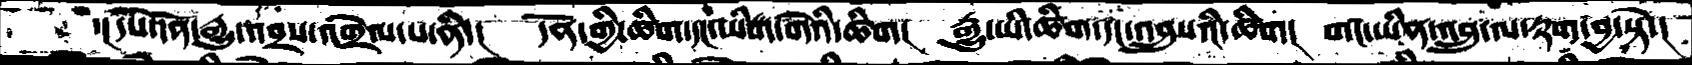་།དཔེ་དོན་རྒྱུ་འབྲས་འགྲེལ་པ་ནི་།  དོན་གྱི་ཚིག་དང་ཡིག་གེའི་ཚིག།  རྒྱུ་ཡི་ཚིག་དང་འབྲུསའི་ཚིག།  གང་ཡིན་འབྲུ་ལ་རྟག་བྱ་སྟེ་།
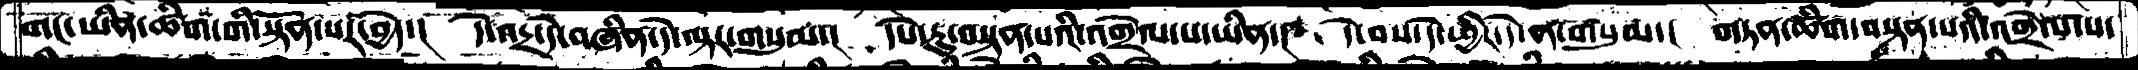གང་ཡིན་ཚིག་གི་སྟོན་པར་བྱེད་།  དེ་འདྲ་དེ་བཞིན་དེ་ལྟར་གསུམ་།  དཔེ་རུ་བསྟན་པའི་འགྲེལ་པ་ཡིན་།  དེ་བས་དེ་ཕྱིར་དེ་ན་གསུམ་།  གཏན་ཚིག་བསྟན་པའི་འགྲེལ་པ་
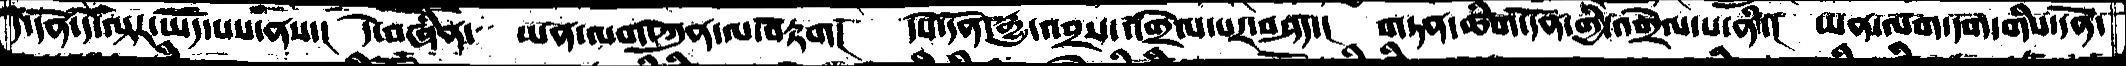དེ་དོན་དེ་ལྟར་ཡོད་པས་ནས་།   དེ་བཞིན་  ཡན་ལག་ཀུན་ལ་བརྟག།   དཔེ་དོན་རྒྱུ་འབྲས་འགྲེལ་པར་བཤད་།  གཏན་ཚིག་དོན་གྱི་འགྲེལ་པ་ནི་།  ཡན་ལག་དག་གིས་དོན་
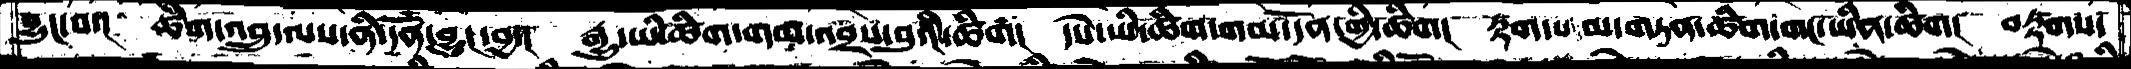བྱུང་བ་། ཚིག་འབྲུ་ལས་ནི་དོན་བྱུང་བྱ་། རྒྱུ་ཡི་ཚིག་གམ་འབྲས་བུའི་ཚིག། དཔེ་ཡི་ཚིག་གམ་དོན་གྱི་ཚིག། རྟག་སམ་གཏན་ཚིག་གང་ཡིན་ཚིག། བརྟགས་
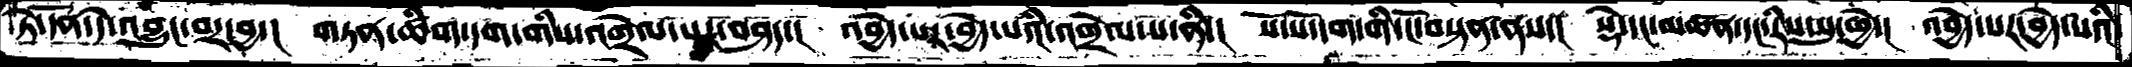ཏེ་དོན་དེ་འབྱུང་བར་བྱ་།  གཏན་ཚིག་དག་གིས་འགྲེལ་པར་བཤད་།  འབྱེད་པར་བྱེད་པའི་འགྲེལ་པ་ནི་།  སོ་སོ་དག་གི་ངོ་བསྟན་ནས་།  སྡེ་དང་མཚན་དང་རིས་སུ་ཕྱེ་།   འབྱེད་པར་བྱེད་པའི་
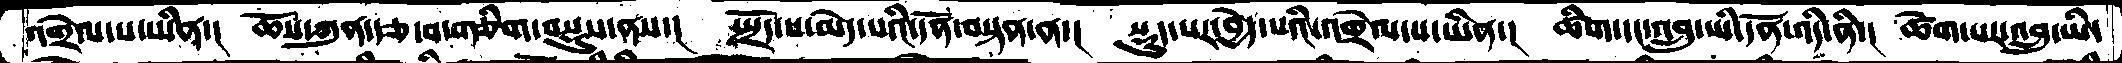འགྲེལ་པ་ཡིན་།  ཆོས་ཀུན་རྩ་བ་གཅིག་བསྡུས་ནས་།  སྤྲོད་པ་མེད་པའི་དོན་བསྟན་ན་།  སྡུད་པར་བྱེད་པའི་འགྲེལ་པ་ཡིན་།  ཚིག་དང་འབྲུ་ཡི་དོན་འདི་ནི་།  ཚེག་པར་འབྲུ་ཡི་
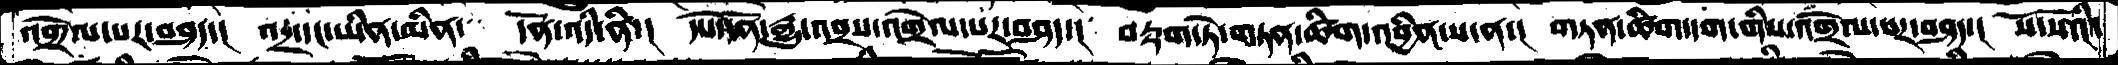འགྲེལ་པར་བཤད་།  འདྲ་དང་ཡིན་མིན་  དོན་འདི་ནི་།  དཔེ་དོན་རྒྱུ་འབྲས་འགྲེལ་པར་བཤད་།  བརྟག་ཏེ་གཏན་ཚིག་འབྱིན་པ་ན་།  གཏན་ཚིག་དག་གིས་འགྲེལ་པར་བཤད་།  སོ་སོའི་
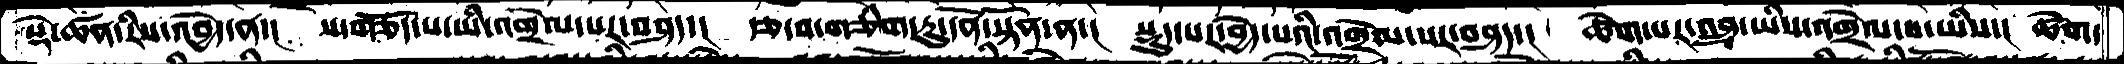སྡེ་ཚན་རིས་འབྱེད་ན་།   ས་གཅོད་པཡི་འགྲེལ་པར་བཤད་།  རྩ་བ་གཅིག་ཏུ་དོན་སྟོན་ན་།  སྡུད་པར་བྱེད་པའི་འགྲེལ་པར་བཤད་།  ཚེག་པར་འབྲུ་ཡིས་འགྲེལ་པ་ཡིས་།  ཚེག་
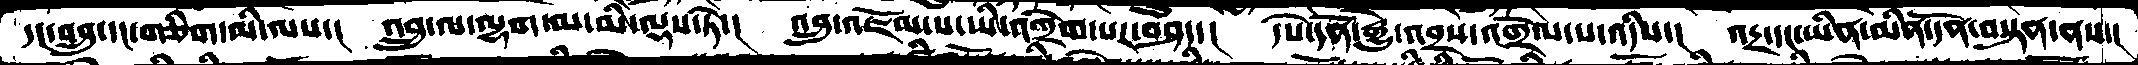དང་འབྲུ་དང་གཅིག་མི་ལས་།  འབྲུ་ལ་ལྷག་མ་མི་ལྡས་ཏེ་།   འབྲུ་འཇོམ་པ་ཡི་འགྲེལ་པར་བཤད་།  དཔེ་དོན་རྒྱུ་འབྲས་འགྲེལ་པ་འདིས་།  འདྲ་དང་ཡིན་མིན་དོན་བསྟན་ནས་།
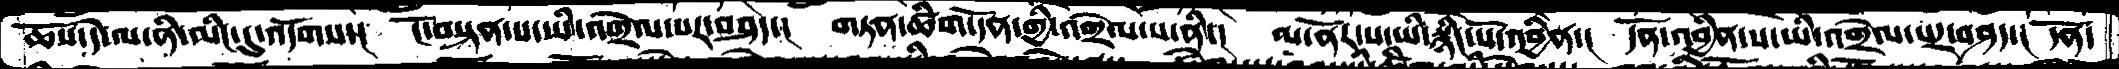ཆོས་དེ་ལ་ནི་མིང་དུ་འདོགས་།  ངོ་བསྟན་པ་ཡི་འགྲེལ་པར་བཤད་།  གཏན་ཚིག་དོན་གྱི་འགྲེལ་པ་ནི་།  མ་ནོར་ས་ཡི་སྙིང་པོ་འབྱིན་།  དོན་འབྱིན་པ་ཡི་འགྲེལ་པར་བཤད་།  དོན་
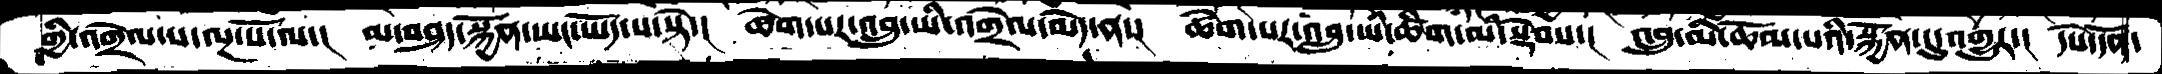གྱི་འགྲེལ་པ་ལྔ་པོ་ལ་།  མ་བཤད་སྐྱོན་ཡང་ཡོད་པ་སྟེ་།  ཚེག་པར་འབྲུ་ཡི་འགྲེལ་མེད་ན་།  ཚེག་པར་འབྲུ་ཡི་ཚིག་མི་སྡེབས་།  འབྲུ་མི་ཆོམ་པའི་སྐྱོན་དུ་འགྱུར་།  དཔེ་དོན་
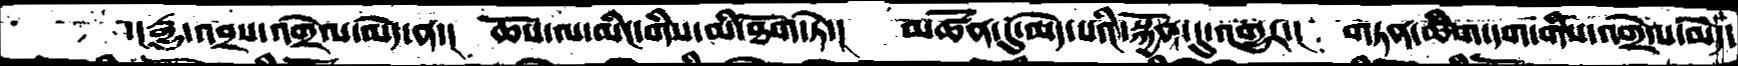་།རྒྱུ་འབྲས་འགྲེལ་མེད་ན་།  ཆོས་ལ་མིང་གིས་མི་ཐོག་ཏེ་།  མཚོན་དུ་མེད་པའི་སྐྱོན་དུ་འགྱུར་།  གཏན་ཚིག་དག་གིས་འགྲེལ་མེད་
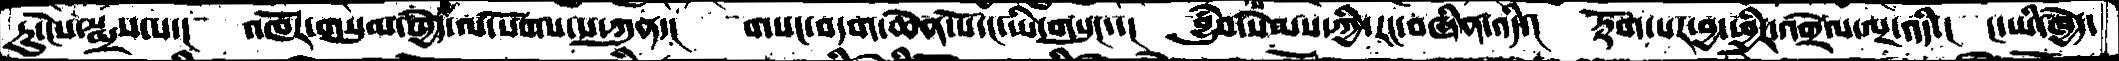ཏུ་ངེས་སྨྲས་པ་།   འཁོར་གསུམ་ཁྱེད་ལ་སོགས་པ་ཀུན་།   གསང་བདག་ཆེན་པོ་ང་ཡི་གསུང་་།   བྱུཾབ་སེམས་ཀྱི་རང་བཞིན་འདི་།   རྟོག་པར་བྱ་ཕྱིར་འགྲེལ་ལྔ་འདི་།  ང་ཡི་ཁྱེད་
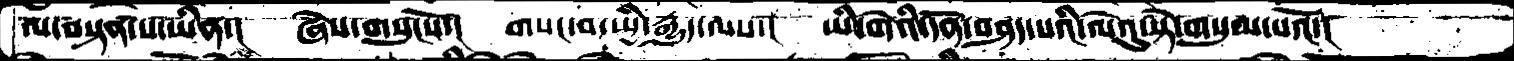ལ་བསྟན་པ་ཡིན་།   ཞེས་གསུངསོ་།   གསང་བ་སྤྱི་རྒྱུད་ལས་།    ཡི་གེའི་དོན་བཤད་པའི་ལེའུ་སྟེ་གསུམ་པའོ་།
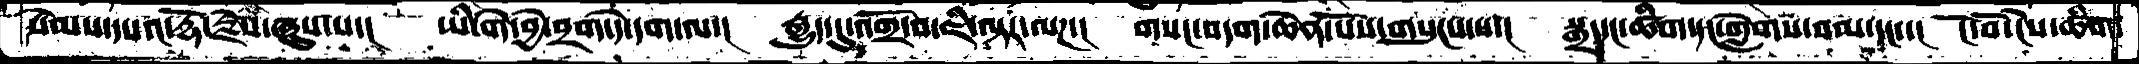སེམས་དཔའ་རྡོ་རྗེས་ཞུས་པ་།    ཡི་གེ་བྱེ་བྲག་དེ་དག་ལ་།   རྒྱུད་དུ་འགྲོ་བ་ཇི་ལྟར་ལཌ་།   གསང་བདག་ཆེན་པོས་གསུངས་པ་།   སྒྲ་དང་ཚིག་དང་གླེགས་བམ་དང་་།   ངོ་བོ་ངེས་ཚིག་
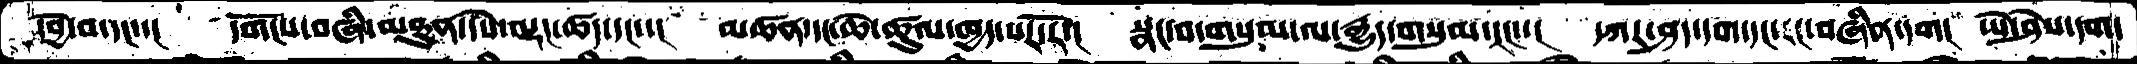དབྱེ་བ་དང་་།   དགོངས་བཞི་མཐུན་དཔེ་ལྡང་ཚད་དང་་།   མཚན་དང་ཆེ་ཚུལ་ཁྱད་པར་རོ་།   སྣང་བ་གསུམ་ལ་རྒྱུད་གསུམ་དང་་།    དཀར་ཤ་དག་དང་རང་བཞིན་དག།  ཡེ་ཤེས་དག་
